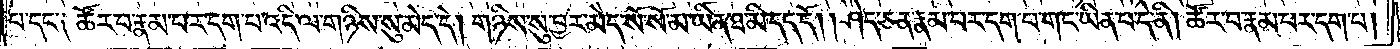པ་དང་༑ ཚོར་བ་རྣམ་པར་དག་པ་འདི་ལ་གཉིས་སུ་མེད་དེ། གཉིས་སུ་བྱར་མེད་སོ་སོ་མ་ཡིན་པ་ཐ་མི་དད་དོ། །ཤེད་ཅན་རྣམ་པར་དག་པ་གང་ཡིན་པ་དེ་ནི། ཚོར་བ་རྣམ་པར་དག་པ།
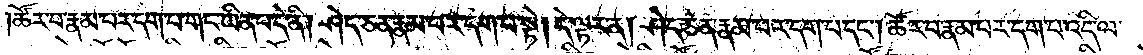ཚོར་བ་རྣམ་པར་དག་པ་གང་ཡིན་པ་དེ་ནི། ཤེད་ཅན་རྣམ་པར་དག་པ་སྟེ། དེ་ལྟར་ན། ཤེད་ཅན་རྣམ་པར་དག་པ་དང༌། ཚོར་བ་རྣམ་པར་དག་པ་འདི་ལ་
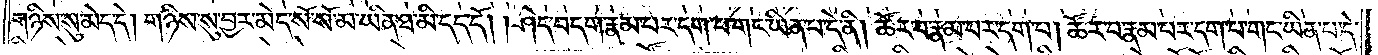གཉིས་སུ་མེད་དེ། གཉིས་སུ་བྱར་མེད་སོ་སོ་མ་ཡིན་ཐ་མི་དད་དོ། །ཤེད་བདག་རྣམ་པར་དག་པ་གང་ཡིན་པ་དེ་ནི། ཚོར་བ་རྣམ་པར་དག་པ། ཚོར་བ་རྣམ་པར་དག་པ་གང་ཡིན་པ་དེ་
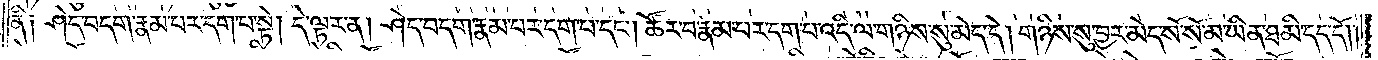ནི༑ ཤེད་བདག་རྣམ་པར་དག་པ་སྟེ། དེ་ལྟར་ན། ཤེད་བདག་རྣམ་པར་དག་པ་དང༌། ཚོར་བ་རྣམ་པར་དག་པ་འདི་ལ་གཉིས་སུ་མེད་དེ། གཉིས་སུ་བྱར་མེད་སོ་སོ་མ་ཡིན་ཐ་མི་དད་དོ། །
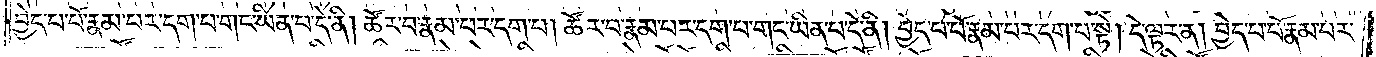བྱེད་པ་པོ་རྣམ་པར་དག་པ་གང་ཡིན་པ་དེ་ནི། ཚོར་བ་རྣམ་པར་དག་པ། ཚོར་བ་རྣམ་པར་དག་པ་གང་ཡིན་པ་དེ་ནི། བྱེད་པ་པོ་རྣམ་པར་དག་པ་སྟེ། དེ་ལྟར་ན། བྱེད་པ་པོ་རྣམ་པར་
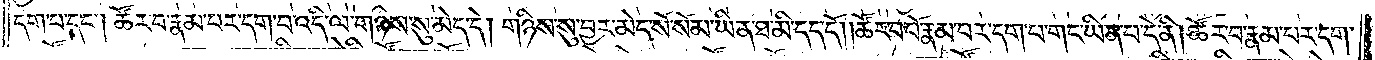དག་པ་དང༌། ཚོར་བ་རྣམ་པར་དག་པ་འདི་ལ་གཉིས་སུ་མེད་དེ། གཉིས་སུ་བྱར་མེད་སོ་སོ་མ་ཡིན་ཐ་མི་དད་དོ། །ཚོར་བ་པོ་རྣམ་པར་དག་པ་གང་ཡིན་པ་དེ་ནི། ཚོར་བ་རྣམ་པར་དག་
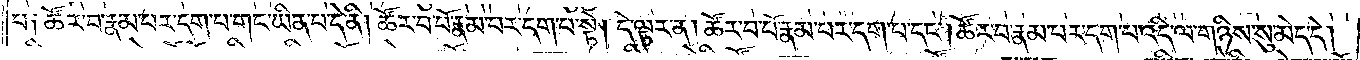པ༑ ཚོར་བ་རྣམ་པར་དག་པ་གང་ཡིན་པ་དེ་ནི། ཚོར་བ་པོ་རྣམ་པར་དག་པ་སྟེ། དེ་ལྟར་ན། ཚོར་བ་པོ་རྣམ་པར་དག་པ་དང༌། ཚོར་བ་རྣམ་པར་དག་པ་འདི་ལ་གཉིས་སུ་མེད་དེ།
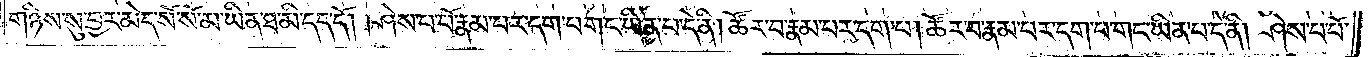གཉིས་སུ་བྱར་མེད་སོ་སོ་མ་ཡིན་ཐ་མི་དད་དོ། །ཤེས་པ་པོ་རྣམ་པར་དག་པ་གང་ཡིན་པ་དེ་ནི། ཚོར་བ་རྣམ་པར་དག་པ། ཚོར་བ་རྣམ་པར་དག་པ་གང་ཡིན་པ་དེ་ནི། ཤེས་པ་པོ་
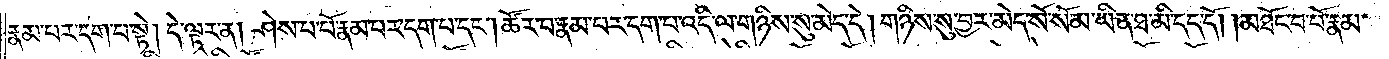རྣམ་པར་དག་པ་སྟེ། དེ་ལྟར་ན། ཤེས་པ་པོ་རྣམ་པར་དག་པ་དང༌། ཚོར་བ་རྣམ་པར་དག་པ་འདི་ལ་གཉིས་སུ་མེད་དེ། གཉིས་སུ་བྱར་མེད་སོ་སོ་མ་ཡིན་ཐ་མི་དད་དོ། །མཐོང་བ་པོ་རྣམ་
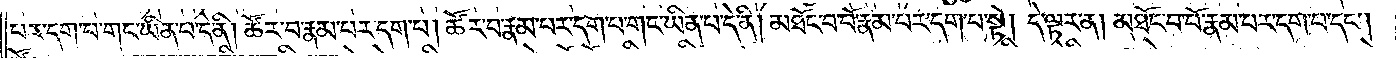པར་དག་པ་གང་ཡིན་པ་དེ་ནི། ཚོར་བ་རྣམ་པར་དག་པ། ཚོར་བ་རྣམ་པར་དག་པ་གང་ཡིན་པ་དེ་ནི། མཐོང་བ་པོ་རྣམ་པར་དག་པ་སྟེ། དེ་ལྟར་ན། མཐོང་བ་པོ་རྣམ་པར་དག་པ་དང༌།
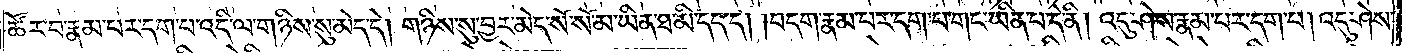ཚོར་བ་རྣམ་པར་དག་པ་འདི་ལ་གཉིས་སུ་མེད་དེ། གཉིས་སུ་བྱར་མེད་སོ་སོ་མ་ཡིན་ཐ་མི་དད་དོ། །བདག་རྣམ་པར་དག་པ་གང་ཡིན་པ་དེ་ནི། འདུ་ཤེས་རྣམ་པར་དག་པ། འདུ་ཤེས་
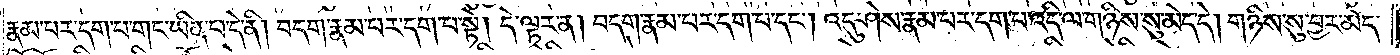རྣམ་པར་དག་པ་གང་ཡིན་པ་དེ་ནི། བདག་རྣམ་པར་དག་པ་སྟེ། དེ་ལྟར་ན། བདག་རྣམ་པར་དག་པ་དང༌། འདུ་ཤེས་རྣམ་པར་དག་པ་འདི་ལ་གཉིས་སུ་མེད་དེ། གཉིས་སུ་བྱར་མེད་
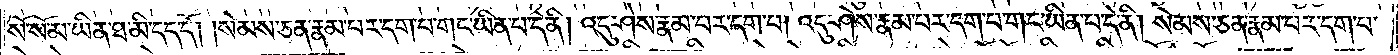སོ་སོ་མ་ཡིན་ཐ་མི་དད་དོ། །སེམས་ཅན་རྣམ་པར་དག་པ་གང་ཡིན་པ་དེ་ནི། འདུ་ཤེས་རྣམ་པར་དག་པ། འདུ་ཤེས་རྣམ་པར་དག་པ་གང་ཡིན་པ་དེ་ནི། སེམས་ཅན་རྣམ་པར་དག་པ་
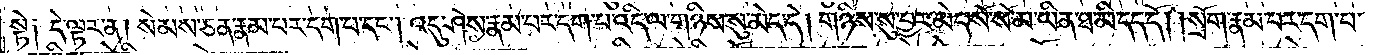སྟེ༑ དེ་ལྟར་ན། སེམས་ཅན་རྣམ་པར་དག་པ་དང༌། འདུ་ཤེས་རྣམ་པར་དག་པ་འདི་ལ་གཉིས་སུ་མེད་དེ། གཉིས་སུ་བྱར་མེད་སོ་སོ་མ་ཡིན་ཐ་མི་དད་དོ། །སྲོག་རྣམ་པར་དག་པ་
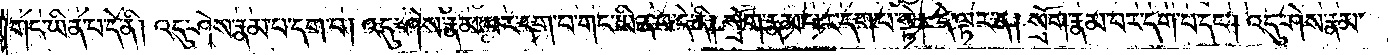གང་ཡིན་པ་དེ་ནི། འདུ་ཤེས་རྣམ་པར་དག་པ། འདུ་ཤེས་རྣམ་པར་དག་པ་གང་ཡིན་པ་དེ་ནི། སྲོག་རྣམ་པར་དག་པ་སྟེ། དེ་ལྟར་ན། སྲོག་རྣམ་པར་དག་པ་དང༌། འདུ་ཤེས་རྣམ་
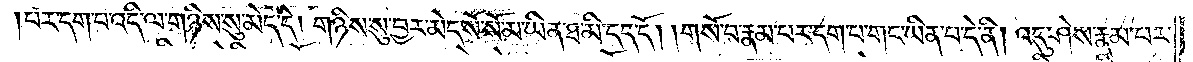པར་དག་པ་འདི་ལ་གཉིས་སུ་མེད་དེ། གཉིས་སུ་བྱར་མེད་སོ་སོ་མ་ཡིན་ཐ་མི་དད་དོ། གསོ་བ་རྣམ་པར་དག་པ་གང་ཡིན་པ་དེ་ནི། འདུ་ཤེས་རྣམ་པར་
